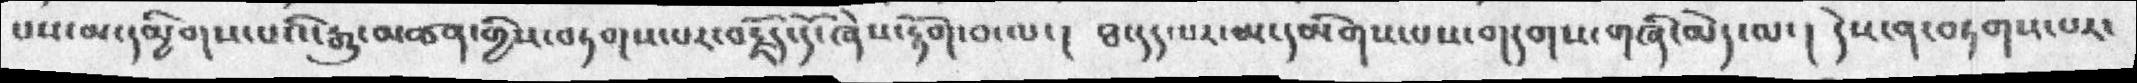པས་མ་དམྱིགས་པའི་རྒྱུ་མཚན་གྱིས་བཏགས་པར་བརྗོད་དོ་ཞེས་རྟོག་བ་ལ་། ཐ་དད་པར་མ་དམིགས་པས་གདགས་གཞི་མེད་ལ་། དེས་ན་བཏགས་པར་
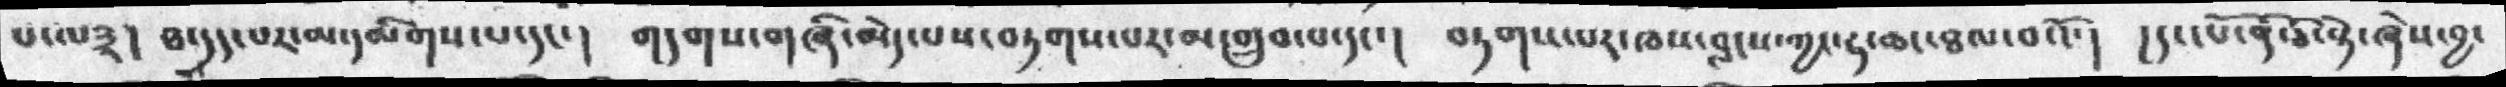པ་ལ༣། ཐ་དད་པར་མ་དམིགས་པ་དང་། གདགས་གཞི་མེད་པས་བཏགས་པར་མ་གྲུབ་པ་དང་། བཏགས་པར་ཁས་བླངས་ཀྱང་ཧ་ཆང་ཐལ་བའོ་། །དང་པོ་ནི་ཅི་སྟེ་ཞེས་བྱ་
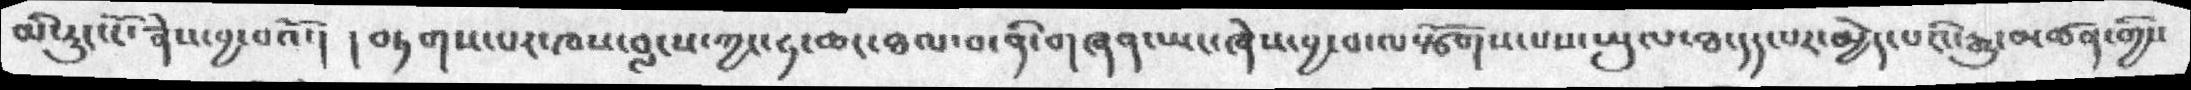མི་རུང་ངོ་ཞེས་བྱ་བའོ་།  །བཏགས་པར་ཁས་བླངས་ཀྱང་ཧ་ཆང་ཐལ་བ་ནི་གཞན་ཡང་ཞེས་བྱ་བ་ལསྩོགས་པས་ཡུལ་ཐ་དད་པར་མྱེད་པའི་རྒྱུ་མཚན་གྱིས
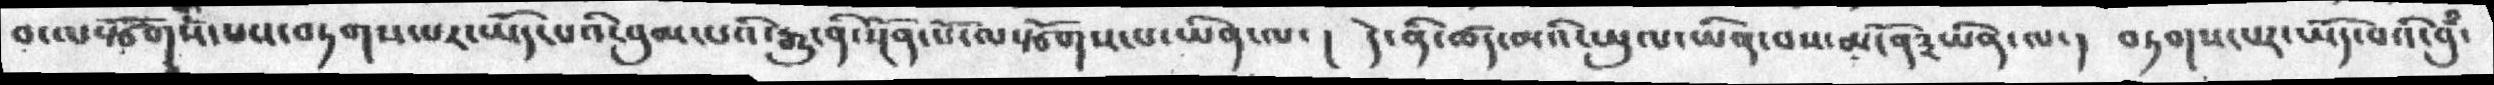བ་ལསྩོགས་པས་བཏགས་པར་ཡོད་པའི་བུམ་པའི་རྒྱུ་ནི་སྔོན་པོ་ལསྩོགས་པ་ཡིན་ལ་། དེ་ནི་ཚད་མའི་ཡུལ་ཡིན་པས་མངོན༣ཡིན་ལ་། བཏགས་པར་ཡོད་པའི་བུཾ་
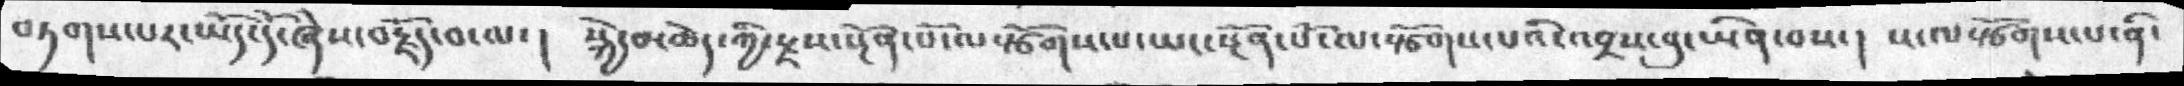བཏགས་པར་ཡོད་དོ་ཞེས་བརྗོད་བ་ལ་།  སྐྱེ་མཆེད་ཀྱི་རྫས་སྔོན་པོ་ལསྩོགས་པ་ཡང་སྔོན་པོ་ལསྩོགས་པའི་འབྲས་བུ་ཡིན་བས་། ས་ལསྩོགས་པ་ནི་
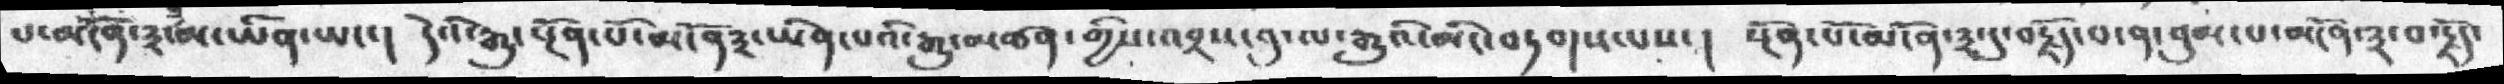པ་མངོན་༣་མ་ཡིན་ཡང་། དེའི་རྒྱུ་སྔོན་པོ་མངོན༣་ཡིན་པའི་རྒྱུ་མཚན་གྱིས་འབྲས་བུ་ལ་རྒྱུའི་མིང་བཏགས་པས་།  སྔོན་པོ་མངོན་༣་དུ་བརྗོད་པ་ན་བུམ་པ་མངོན་༣་བརྗོད་
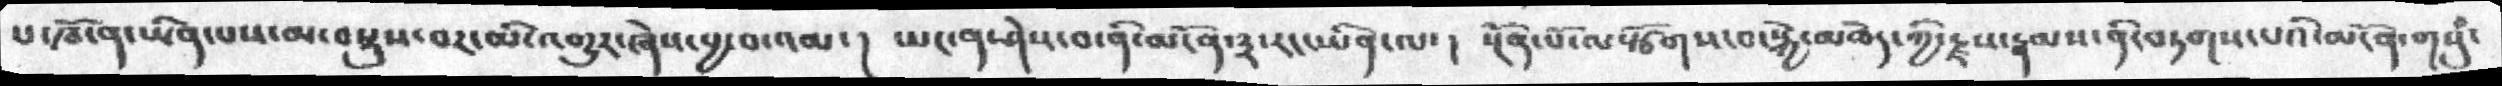པ་ཁོ་ན་ཡིན་པས་མ་བསྡུས་བར་མི་འགྱུར་ཞེས་བྱ་བ་འམ་།  ཡང་ན་ཤེས་བ་ནི་མངོན་༣་རང་ཡིན་ལ་།  སྔོན་པོ་ལསྩོགས་བ་སྐྱེ་མཆེད་ཀྱི་རྫས་རྣམས་ནི་བཏགས་པའི་མངོན་གསུཾ་
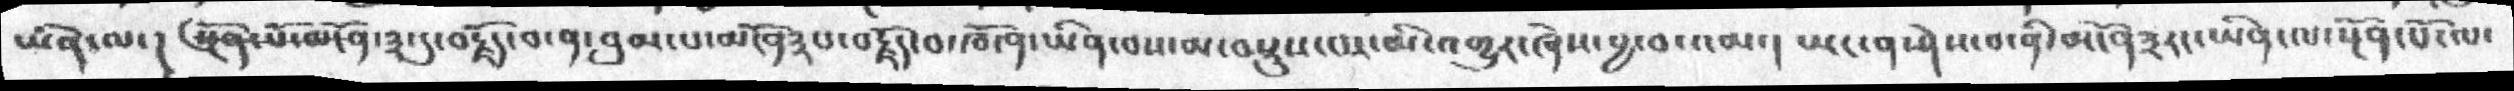ཡིན་ལ་། སྔོན་པོ་མངོན་༣་དུ་བརྗོད་ན་བུམ་པ་མངོན༣པ་བརྗོད་བ་ཁོ་ན་ཡིན་བས་མ་བསྡུས་པར་མི་འགྱུར་ཞེས་བྱ་བ་འམ་།  ཡང་ན་ཤེས་བ་ནི་མངོན༣རང་ཡིན་ལ་སྔོན་པོ་ལ་
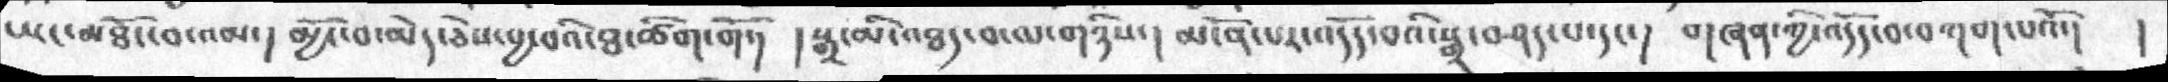ཡང་མཐོང་བ་འམ་།  མྱོང་བ་མེ་དཅེས་བྱ་བའི་ཐ་ཚིག་གོ་། །སྒྲ་མི་འཐད་པ་ལ་གཉིས་། མངོན་པར་འདོད་བའི་སྒྲ་བཤད་པ་དང་། གཞན་ཀྱི་འདོད་བ་བཀག་པོ་། །
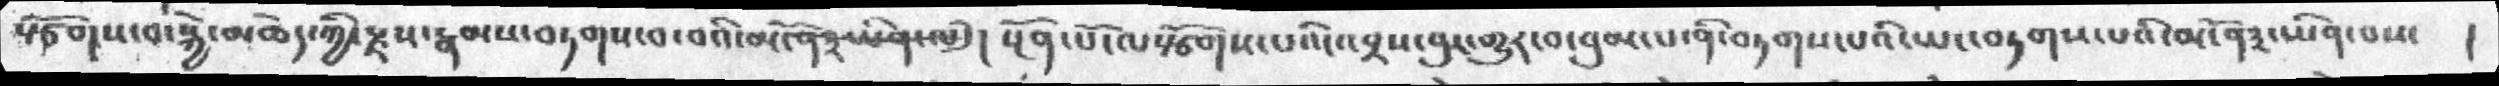སྩོགས་བ་སྐྱེ་མཆེད་ཀྱི་རྫས་རྣམས་བཏགས་བ་བའི་མངོན༣ཡིན་ལ་། སྔོན་པོ་ལསྩོགས་པའི་འབྲས་བུར་གྱུར་བ་བུམ་པ་ནི་བཏགས་པའི་ཡང་བཏགས་པའི་མངོན༣་ཡིན་པས་ །
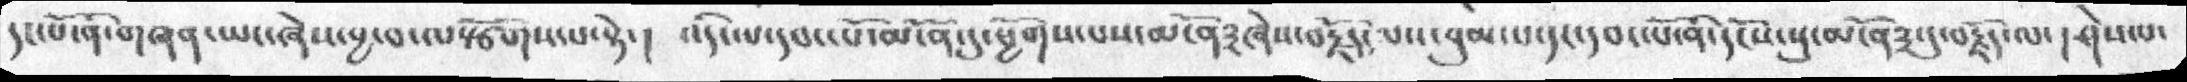དང་པོ་ནི་གཞན་ཡང་ཞེས་བྱ་བ་ལསྩོགས་པ་སྟེ་།   འདི་ལ་དབང་པོ་མངོན་དུ་ཕྱོགས་པས་མངོན༣ཞེས་བརྗོད་པས་བུམ་པ་དང་དབང་པོ་ནི་དངོས་སུ་མངོན་༣་དུ་བརྗོད་ལ་ ། ཤེས་པ་
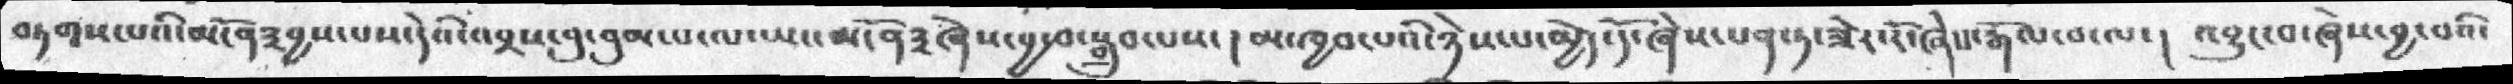བཏགས་པའི་མངོན༣བྱས་པས་དེའི་འབྲས་བུ་བུམ་པ་ལ་ཡང་མངོན༣ཞེས་བྱ་བ་སྒྲུབ་པས་ ། མ་ཁྱབ་པའི་ཉེས་པ་མྱེད་དོ་ཞེས་པན་ཏ་ཟེར་རོ་ཞེས་རྒོལ་བ་ལ་། འབྱུང་བ་ཞེས་བྱ་བའི་
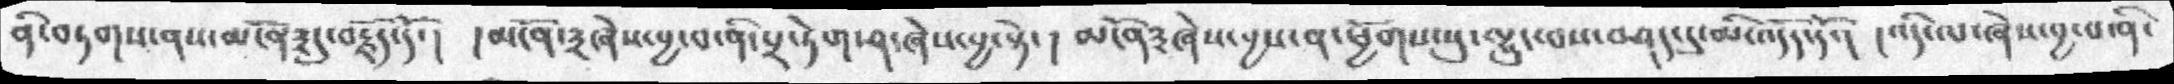ནི་བཏགས་ནས་མངོན༣དུ་བརྗོད་དོ་།  །མངོན་༣ཞེས་བྱ་བ་ནི་པྲ་ཏེག་ཤ་ཞེས་བྱ་སྟེ་ །  མངོན༣ཞེས་བྱས་ན་ཕྱོགས་སུ་ལྷུང་བས་བཤད་དུ་མི་འདོད་དོ་།  །འདི་ལ་ཞེས་བྱ་བ་ནི་
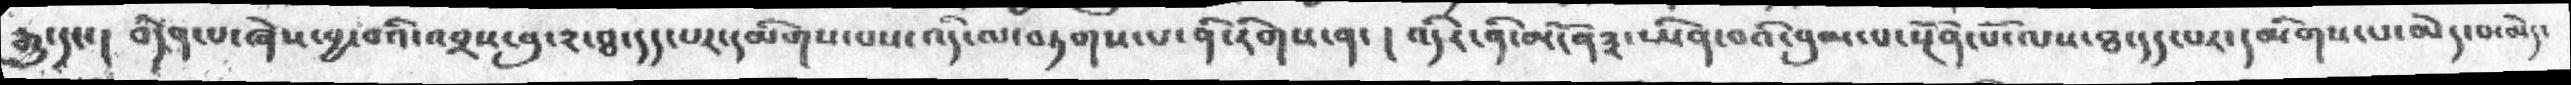རྒྱུ་དང་། བདེན་པ་ཞེས་བྱ་བའི་འབྲས་བུ་༢་ཐ་དད་པར་དམིགས་པས་འདི་ལ་བཏགས་པ་ནི་རིགས་ན་ ། འདིར་ནི་མངོན༣་ཡིན་བའི་བུམ་པ་སྔོན་པོ་ལས་ཐ་དད་ལས་ཐ་དད་པར་དམིགས་པ་མེད་པ་མེད་
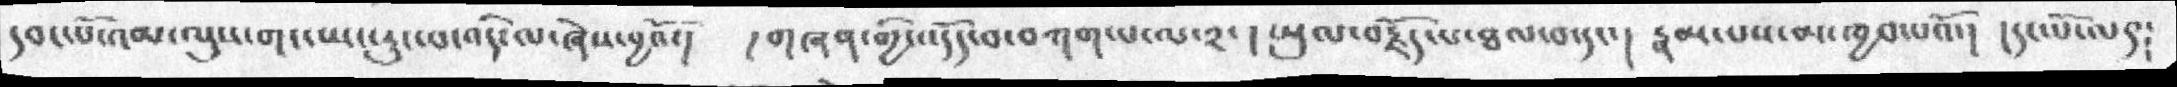དབང་པོ་འམ་ལུས་གང་ཡང་རུང་བ་འདི་ལ་ཞེས་བྱའོ་།  །གཞན་གྱི་འདོད་བ་བཀག་པ་ལ་༢་། ཡུལ་བརྗོད་པ་ཐལ་བ་དང་། རྣམ་པས་མ་ཁྱབ་པའོ་། །དང་པོ་ལ༩༴
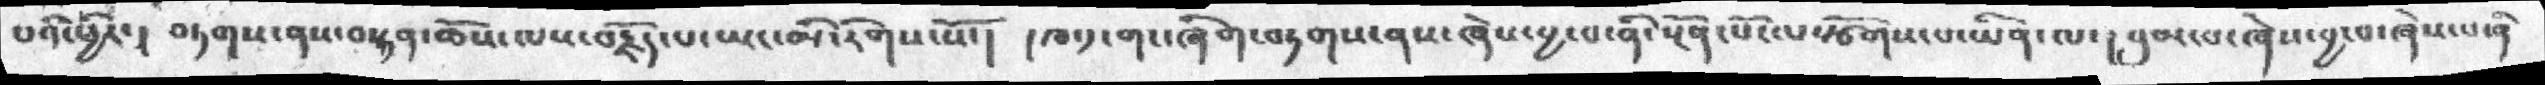པའི་ཕྱིར་།  བཏགས་ནས་བསྟན་ཆོས་ལས་བརྗོད་པ་ཡང་མི་རིགས་སོ་། །ཁ་༡་གང་ཞིག་བཏགས་ནས་ཞེས་བྱ་བ་ནི་སྔོན་པོ་ལསྩོགས་པ་ཡིན་ལ་། བུམ་པ་ཞེས་བྱ་པ་ཞེས་པ་ནི
